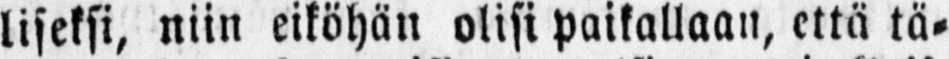liseksi, niin eiköhän olisi paikallaan, että tä-
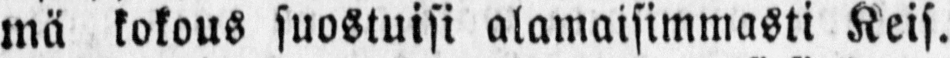mä kokous suostuisi alamaisimmasti Keis.
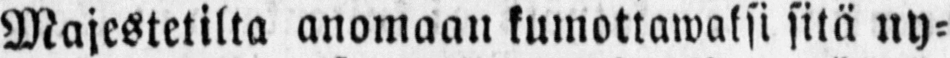Majestetilta anomaan kumottawaksi sitä ny-
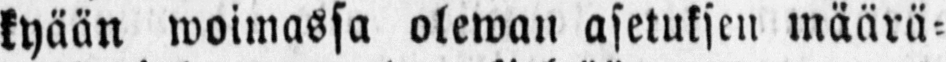kyään woimassa olewan asetuksen määrä-
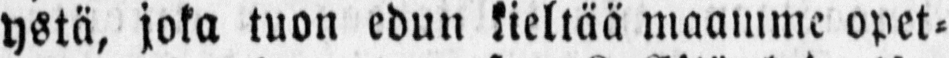ystä, joka tuon edun kieltää maamme opet-
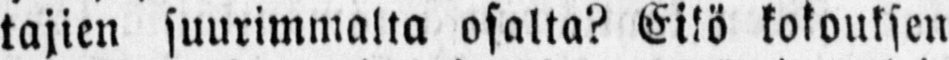tajien suurimmalta osalta? Eikö kokouksen
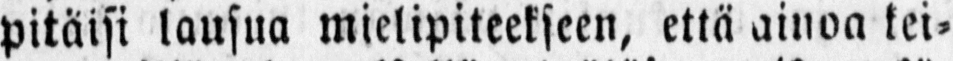pitäisi lausua mielipiteekseen, että ainoa kei-
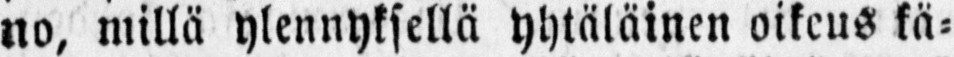no, millä ylennyksellä yhtäläinen oikeus kä-
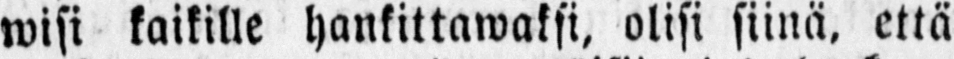wisi kaikille hankittawaksi, olisi siinä, että
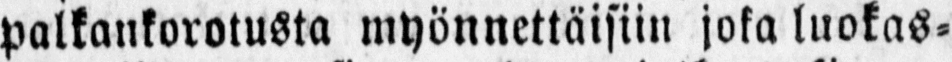palkankorotusta myönnettäisiin joka luokas-
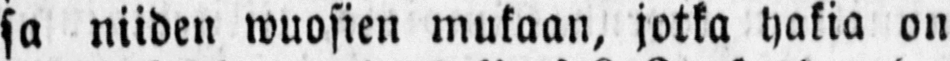sa niiden wuosien mukaan, jotka hakia on
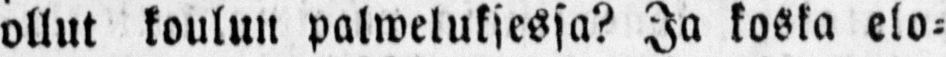ollut koulun palweluksessa? Ja koska elo-
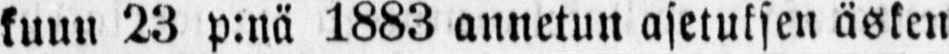kuun 23 p:nä 1883 annetun asetuksen äsken
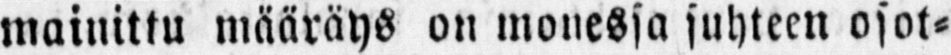mainittu määräys on monessa suhteen osot-
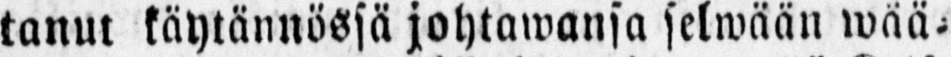tanut käytännössä johtawansa selwään wää-
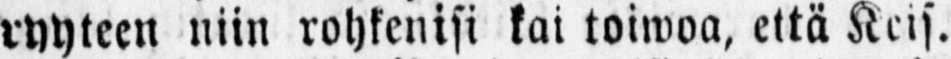ryyteen niin rohkenisi kai toiwoa, että Keis.
